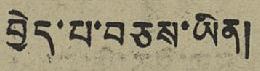བྱེད་པ་བཅས་ཡིན།
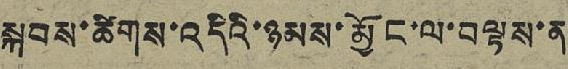སྐབས་ཚིགས་འདིའི་ཉམས་མྱོང་ལ་བལྟས་ན
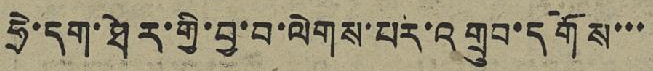ཧྲེ་དག་ཐེར་གྱི་བྱ་བ་ལེགས་པར་འགྲུབ་དགོས་་་
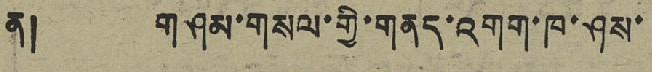ན། གཤམ་གསལ་གྱི་གནད་འགག་ཁ་ཤས་
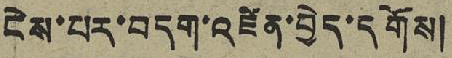ངེས་པར་བདག་འཛིན་བྱེད་དགོས།
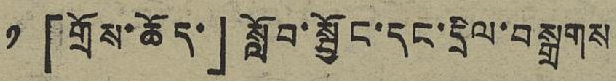༡ 「གྲོས་ཆོད་」 སློབ་སྦྱོང་དང་དྲིལ་བསྒྲགས
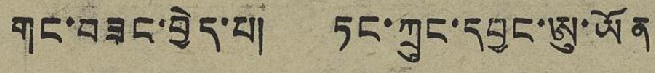གང་བཟང་བྱེད་པ། ཏང་ཀྲུང་དབྱང་ཨུ་ཡོན
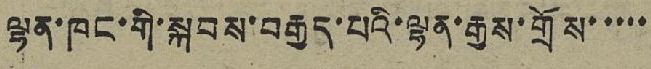ལྷན་ཁང་གི་སྐབས་བརྒྱད་པའི་ལྷན་རྒྱས་གྲོས་་་་་
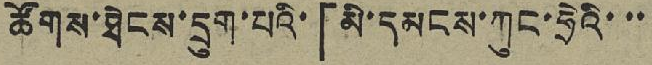ཚོགས་ཐེངས་དྲུག་པའི་「མི་དམངས་ཀུང་ཧྲེའི་་་
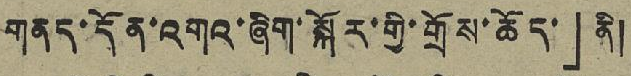གནད་དོན་འགའ་ཞིག་སྐོར་གྱི་གྲོས་ཆོད་」ནི།
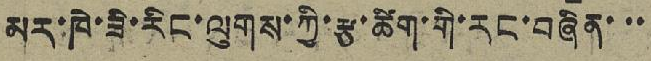མར་ཁེ་ཟི་རིང་ལུགས་ཀྱི་རྩ་ཚིག་གི་རང་བཞིན་་་
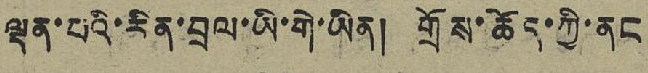ལྡན་པའི་རིན་བྲལ་ཡི་གེ་ཡིན། གྲོས་ཆོད་ཀྱི་ནང
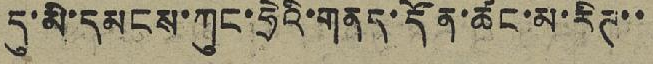དུ་མི་དམངས་ཀུང་ཧྲེའི་གནད་དོན་ཚང་མ་རིཊ་་
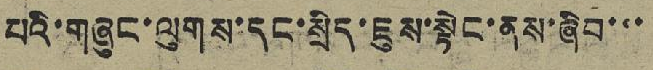པའི་གཞུང་ལུགས་དང་སྲིད་ཇུས་སྟེང་ནས་ཞིབ་་་
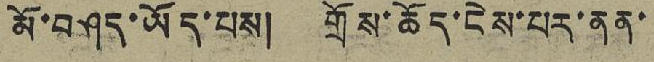མོ་བཤད་ཡོད་པས། གྲོས་ཆོད་ངེས་པར་ནན་
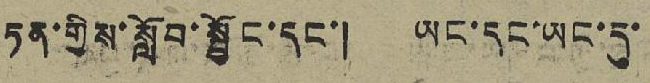ཏན་གྱིས་སློབ་སྦྱོང་དང་། ཡང་དང་ཡང་དུ་
